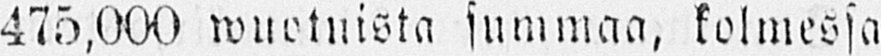475,000 wuotuista summaa, kolmessa
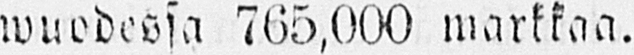wuodessa 705,000 markkaa.
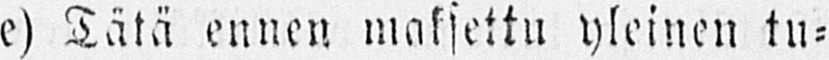e)Tätä ennen maksettu yleinen tu-
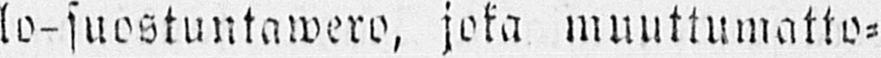lo-suostuntawero, jeka muuttumatto-
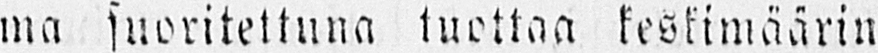ma suoritettuna tuottaa keskimäärin
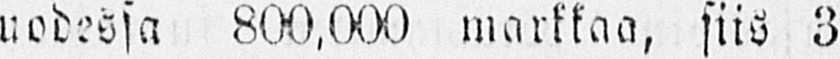wuodessa 800,000 markkaa, siis 3
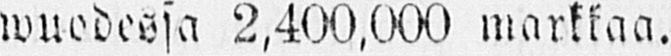wuodessa 2,400,000 markkaa.
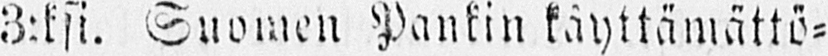3:ksi. Suomen Pankin käyttämättö-
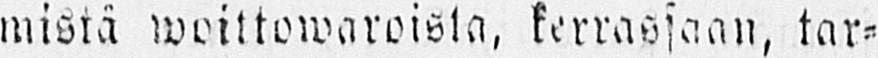mistä woittowaroista, kerrassaan, tar-
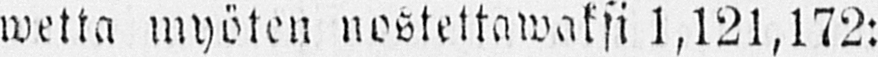wetta myöten nostettawaksi 1,121,172:
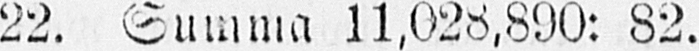22. Summa 11,028,890: 82.
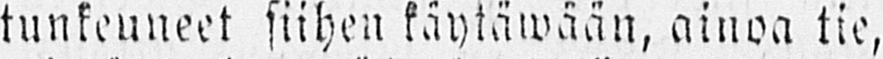tunkeuneet siihen käytäwään, ainoa tie,
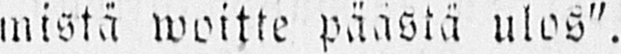mistä woitte päästä ulos".
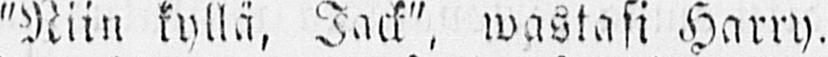"Niin kyllä, Jack", wastasi Harry.
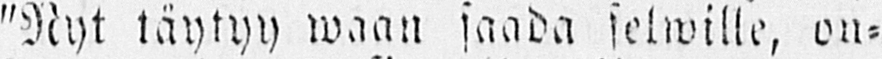"Nyt täytyy waan saada selwille, on-
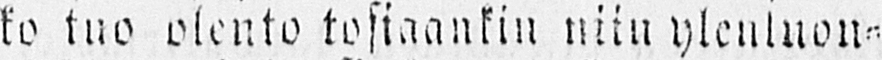ke tuo olento tosiaankin niin ylenluon-
